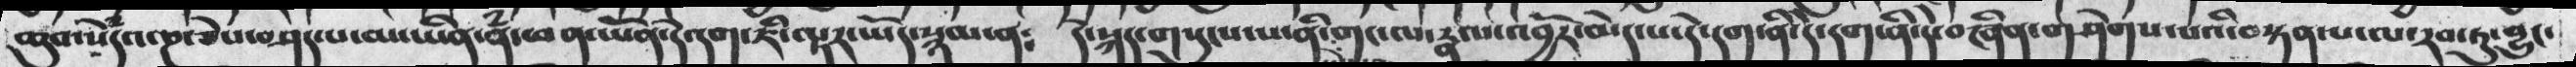ཆུབ་སེཾདའ་ཎ་ཅེས་བཤད་པ་མ་ཡིན་ནཾ་ཕན་ཡོན་དེ་དག་ཇི་ལྟར་ཡོད་སྙམ་ན༴ དེ་སྐད་གསུངས་པ་ནི་གང་ལ་རྣལ་འབྱོར་མེད་པ་དེ་དག་ནི་དེ་དག་ནི་དེ་བཞིན་གཤེགས་པའི་བསྟན་པ་ལ་རབ་ཏུ་བྱུང་
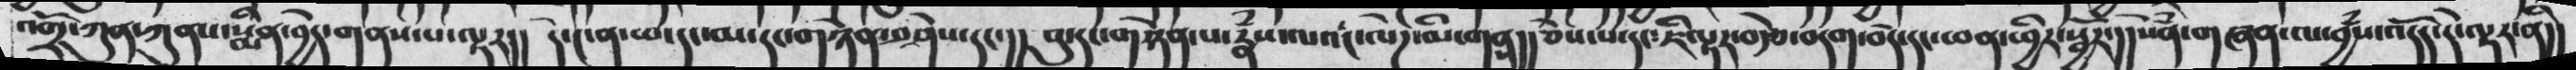འགྲོ་ཀུན་ཀུནས་སྨིན་བྱེད་གནས་པ་ལྟར།། དེ་༤ན་ཕ་དང་མ་དང་གཉེན་བཤེས་དང་།།  བུ་རང་གཉེན་པ་རྣཾས་ལའང་ལེཌ་མི་གནས།།  ཅེས་པ་དང་ཇི་ལྟར་བརྩེ་བདག་བདེ་དང་ཕན་ཕྱིར་སྦྱོར་།།  སེཾན་གཞན་ལ་བྱཾས་འདོད་དེ་ལྟར་ནིདད
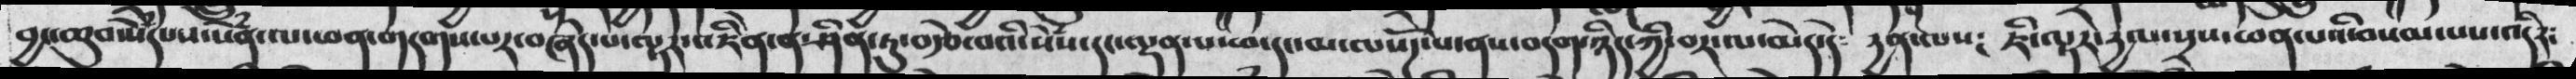བྱང་ཆུབ་སེཾདཔའ་སེཾན་ལ་ཕན་གདགས་པར་བཞེད་པ་ལྟར་འཛིེན་ན་ཤིན་ཏུ་བརྩེ་བའི་སེཾས་དང་ལྡན་པ་ཕ་དང་མ་ལསོཌ་པ་ནས་བདག་ཉིད་ཀྱི་བར་ལ་མེད་དེ༴  དྱན་ལས༑  ཇི་ལྟར་རྱལ་སྲས་ཕན་པའི་མསམ་པས་འདིར༴
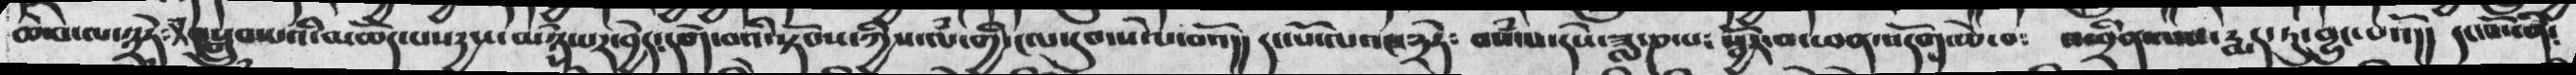ཆེ་བ་ལ་༣ཏེ+བསྒྲུབ་པའི་མཆོད་པསདྱས་མཉེས་པར་བྱེད་དགེ་བའི་སྟོབས་ཀྱིས་ལཾ་གྱི་ངལ་དུབ་སེལ་བའོ།།  དང་པོ་ལའང་༣ཏེ༴   བསཾ་པ་དཔེ་ཟླ་ཎ་པ༴ སྦྱོར་བ་ཕན་བདོག་ཆེ་བ༴   འཕྲིན་ལས་རྨད་ཏུ་བྱུང་པའོ།།  དང་པོ་ནི༴
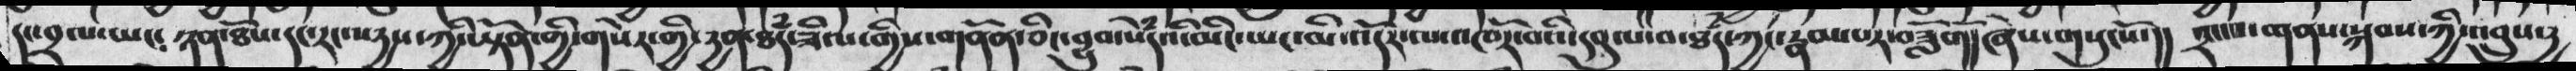དང་བྲལ་ཡང༴ ཉན་ཐོས་དང་རང་སདྱས་ཀྱི་ཡྟོན་གྱི་གསེར་གྱི་དྱན་ཐཾད་ཟིལ་གྱིས་གནོན་ཅིང་བྱུབ་སེཾདའི་མིང་ཡང་མི་འདོར་ལ་འཁོར་བའི་དབུལ་བ་ཐཾད་ཀྱང་རྣམ་པར་བཟློགོ།ཞེས་གསུངསོ་།།  ༢་པ་གནས་སྐབས་ཀྱི་འབྲུས་དྱ
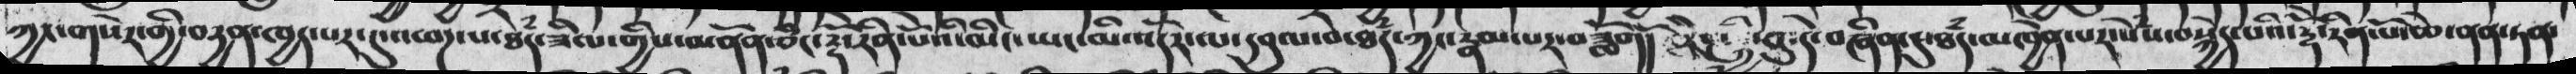ཀྱང་གསེར་གྱི་བདྱན་ཁྱད་པར་དུ་འཕཌ་པ་ཐཾད་ཟིལ་གྱིས་མནོན་ཅིང་རྡོ་རིན་པོའི་མིང་ཡང་མི་འདོར་ལ་དབུལ་བ་ཐཾད་ཀྱང་རྣམ་པར་བཟློགོ། རིགས་ཀྱི་བུ་དེ་བཞིན་དུ་ཐྃད་མཁྱེན་པར་སེཾས་བསྐྱེད་པའི་རྡོེ་རིན་པོ་ཆེ་ནན་ཏན་
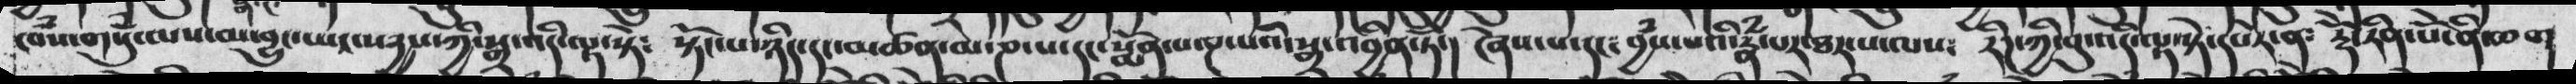ཁཾས་གསུཾ་ལས་མ་བྱུང་ཡང་སདྱས་ཀྱི་སྒྲ་འདི་ལྟ་སྟེ༴   སྟོང་པ་ཉིད་དང་མཚན་མ་ཎ་པ་དང་སྨོན་པ་ལྔ་པའི་སྒྲ་འབྱིན་ཏོ་།   ཞེས་པ་དང༴   བྱཾས་པའི་རྣམ་པར་ཐར་པ་ལས༴ རིཌ་ཀྱི་བུ་འདི་ལྟ་སྟེ་དཔེར་ན༴  རྡོེ་རིན་པོེ་ནི་ཆག
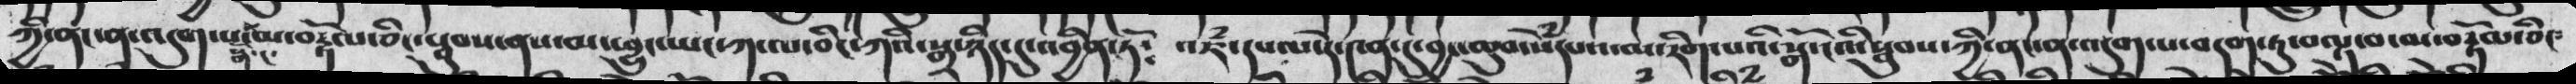ཀྱི་ནང་ན་འདུག་པ་སྒོ་ང་མ་བརྟོལ་ཅིང་སྦུབས་ནས་མ་ཕྱུང་ཡང་ཀ་ལ་བིང་ཀའི་སྒྲ་ཉིད་དུ་འབྱིན་ཏ༴   འཇཾ་དཔལ་དེ་༤ན་དུ་བྱང་ཆུབ་སེཾདཔའ་མ་རིག་པའི་སྒོ་ངའི་སྦུབས་ཀྱི་ནང་ན་འདུག་པ་བདག་ཏུ་བལྟ་བ་མ་བརྟོལ་ཅིང༴
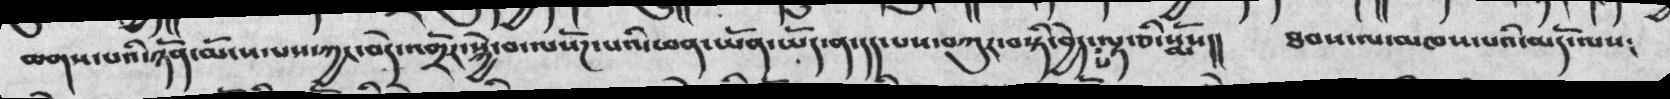ཆགས་པའི་ཉོན་མོངས་པས་ཀྱང་བདེ་འགྲོར་སྐྱེ་བ་ལསོཌ་པའི་ཕན་ཡོན་ཡོད་ན་དད་པས་བཀུར་བསྟི་བྱེད་པ་ལྟ་ཅི་སྨོས།།  ཐབས་ལ་མཁས་པའི་མདོ་ལས༴
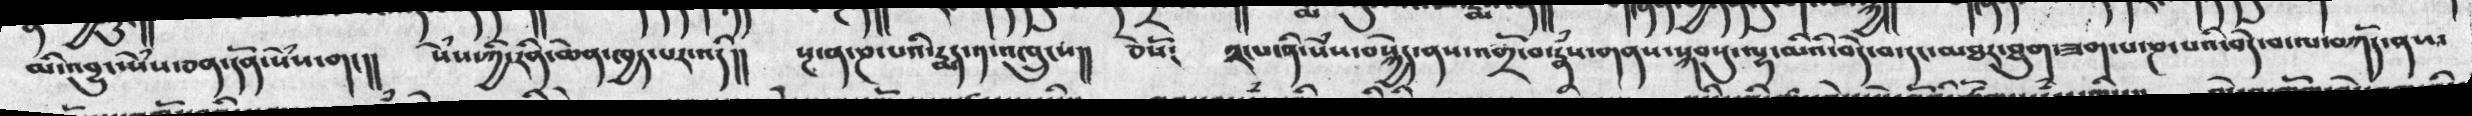མི་འབྱུང་སེཾས་ཅན་དོན་སེཾས་གང།།  སེཾས་ཀྱི་རིན་ཆེན་ཁྱད་པར་འདི།། སྔ་ན་ཎ་པའི་རྨད་༡་འཁྲུངས།། ཅེསོ༴  ༢་པ་ནི་སེཾས་བསྐྱེད་ནས་འགྲོ་བ་རྣཾས་གནས་སྐབས་སུ་ལྷ་མིའི་བདེ་བ་དང་མཐར་ཐུག་ཟག་པ་ཎ་པའི་བདེ་བ་ལ་བཀོད་ནས་
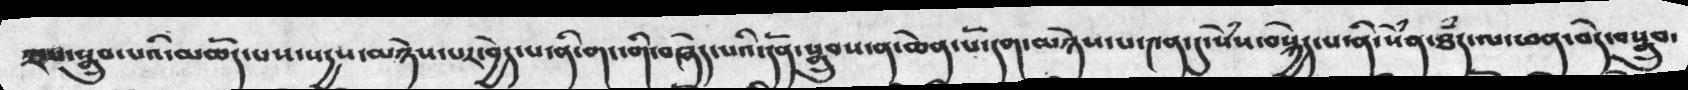སྤྲས་སྒྲུབ་པའི་མཆོད་པས་སདྱས་མཉེས་པར་བྱེད་པ་ནི་གང་གི་བཞེད་པའི་དོན་སྒྲུབས་ན་ཆེན་པོ་དག་མཉེས་པ་༤ན་དུ་སེཾས་བསྐྱེད་པ་ནི་སེྃན་ཐཾད་ལ་ཕན་བདེ་བསྒྲུབ་
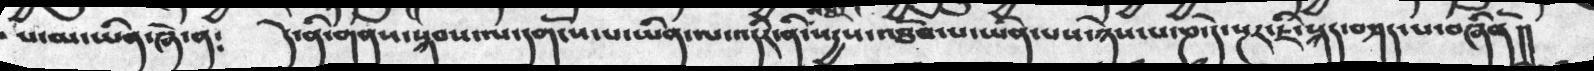པ་མ་ཡིན་ཞེ་ན༴  དེ་ནི་གསན་སྐབས་ལ་དགོངས་པ་ཡིན་ལ་འདིར་ནི་སདྱས་འཐོབ་པ་ཡིན་པས་ཉེས་པ་ཎ་དེ་སྔར་ཇི་སྐད་བཤད་པ་བཞིནོ།།
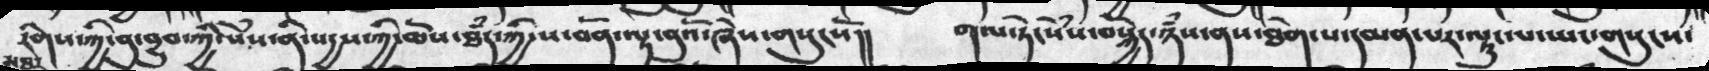རིགས་ཀྱི་བུ་བྱུབ་ཀྱི་སེཾས་ནི་སདྱས་ཀྱི་ཆོས་ཐཾད་ཀྱི་ས་བོན་ལྟ་བུའོ་ཞེས་གསུངསོ།།  གལ་ཏེ་སེཾས་བསྐྱེད་ཉཾས་ནས་ཐེག་པ་དམན་པར་ལྟུང་པ་ཡང་གསུངས་
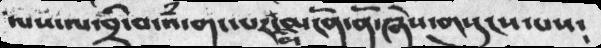ལས་ལ་བྲི་བ་འཾ་གང་པར་མི་མངོན་ནོ་ཞེས་གསུངས་པས༴
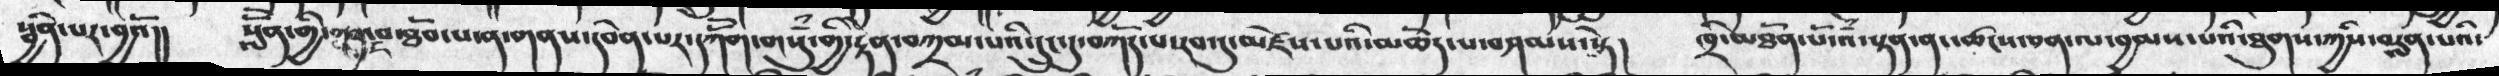སྦྱིན་པར་བྱའོ།།  སློོན་གྱི་གནང་བ་ཐོབ་པ་ན་གནས་དབེན་པར་དཀོོག་གསུཾ་གྱི་རྟེན་བཀྲམ་པའི་དྲུང་དུ་བཀོད་པ་རབ་ཏུ་མཛེས་པའི་མཆོད་པ་བཤམས་སྟེ།  ཁྲི་མཐོན་པོ་འཾ་སྟན་ན་ཚངས་ཅན་ལ་བྱམས་པའི་ཐུགས་ཀྱིས་བརླན་པའི་
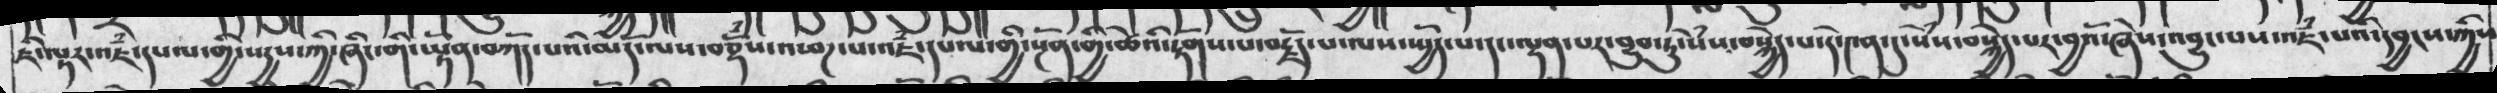ཇི་ལྟར་འཇཾ་དཔལ་གྱི་སདྱས་ཀྱི་ཞིང་གི་ཡྟོན་བཀོད་པའི་མདོ་ལས་བཅྡོཾས་འཕཌ་པ་འཇཾ་དཔལ་གྱི་སྔོན་གྱི་ཚེའི་རྟོགས་པ་བརྗོད་པ་ལས་སྤྱོད་པ་དང་ལྡན་པར་བྱུབ་ཏུ་སེྃས་བསྐྱེད་པ་དེ་༤ན་དུ་སེཾས་བསྐྱེད་པར་བྱའོ་ཞེས་འབྱུང་པས་འཇཾ་པའི་དབྱངས་ཀྱིས་
